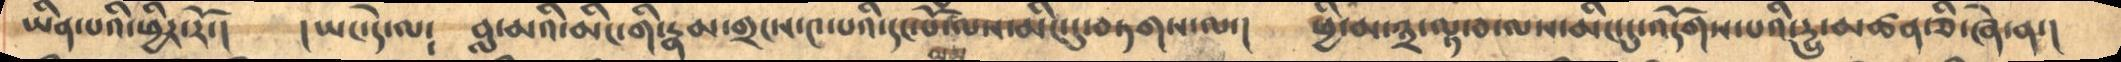ཡིན་པའི་ཕྱིར་རོ་།    །ཡང་དེ་ལ།  བླ་མའི་མིང་གི་རྣམ་གྲངས་༤་པའི་དང་པོ་ལས་མིང་དུ་བཏགས་ལ་།  ཕྱི་མ་༣་ལྟ་བ་ལས་མིང་དུ་འདོགད་པའི་དྱུ་མཚན་ཅི་ཞེ་ན་།
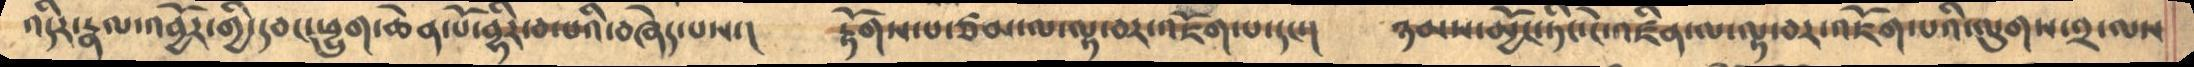འདིར་རྣལ་འབྱོར་གྱི་དབང་ཕྱུག་ཆེན་པོ་བྷིར་བ་པའི་བཞེད་པས་།   རྟོགས་པ་ཙམ་ལ་ལྟ་བར་འཇོག་པ་དང་།    ཉམས་མྱོང་ཏིང་ངེ་འཛིན་ལ་ལྟ་བར་འཇོག་པའི་ལུགས་༢་ལས
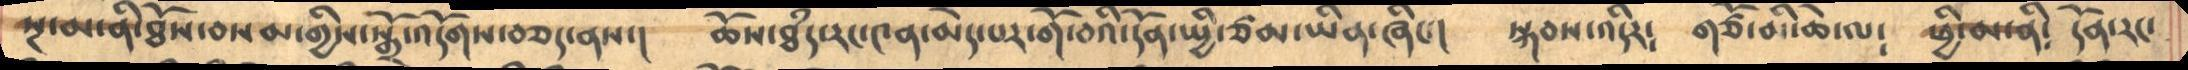སྔ་མ་ནི་ཐོས་བསམ་གྱིས་སྒྲོ་འདོགས་བཅད་ནས་།     ཆོས་ཐཾད་རང་༤ན་མེད་པར་གོ་བའི་དོན་སྤྱི་ཙམ་ཡིན་ཞིང་།    སྐབས་འདིར༴    གཙོ་མི་ཆེ་ལ༴   ཕྱི་མ་ནི༴   དོན་རང་
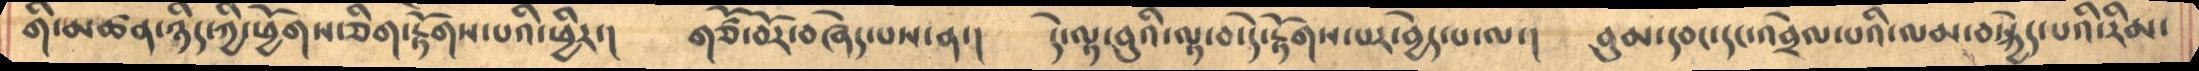གི་མཚན་ཉིད་ཀྱི་ཕྱོགས་ཅིག་རྟོགས་པའི་ཕྱིར་།     གཙོ་བོར་བཞེད་པས་ན་།    དེ་ལྟ་བུའི་ལྟ་བ་དེ་རྟོགས་པར་བྱེད་པ་ལ་།   བུམ་དབང་དང་འབྲེལ་པའི་ལམ་བསྐྱེད་པའི་རིམ་
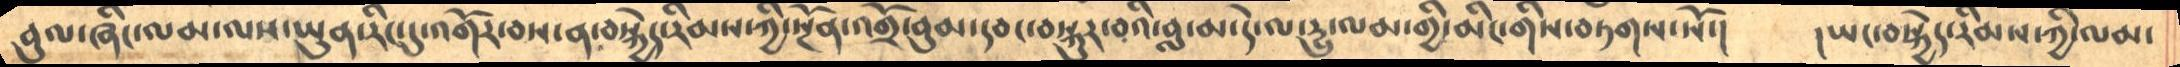བུལ་ཞིང་ལམ་ལས་ཡུན་རིང་དུ་འགོར་བས་ན་བསྐྱེད་རིམས་ཀྱི་སྔོན་འགྲོ་བུམ་དབང་བསྐུར་བའི་བླ་མ་དེ་ལ་དྱུ་ལམ་གྱི་མིང་གིས་བཏགས་སོ་།   །ཡང་བསྐྱེད་རིམས་ཀྱི་ལམ་
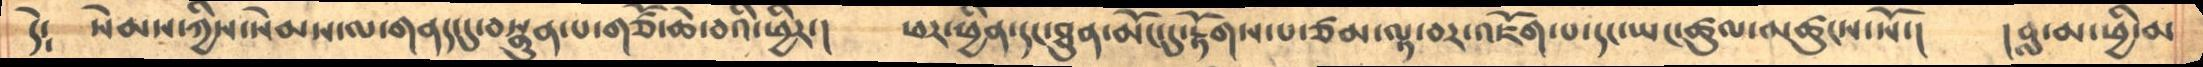དེ༴     སེམས་ཀྱིས་སེམས་ལ་གནད་དུ་བསྣུན་པ་གཙོ་ཆེ་བའི་ཕྱིར་།     ཕར་ཕྱིན་དང་ཐུན་མོང་དུ་རྟོགས་པ་ཙམ་ལྟ་བར་འཇོག་པ་དང་ཡང་ཚུལ་མཚུངས་སོ་།    །བླ་་མ་ཕྱི་མ
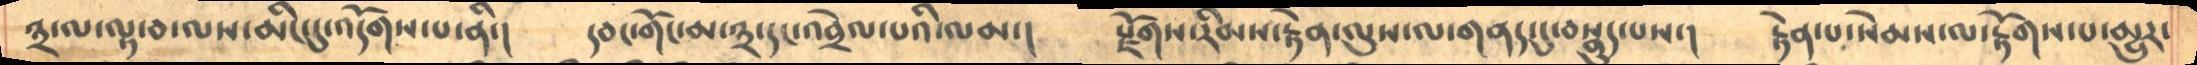༣་ལ་ལྟ་བ་ལས་མིང་དུ་འདོགས་པ་ནི་།     དབང་གོང་མ་༣་དང་འབྲེལ་པའི་ལམ་།     རྫོགས་རིམས་རྟེན་ལུས་ལ་གནད་དུ་བསྣུད་པས་།   རྟེན་པ་སེམས་ལ་རྟོགས་པ་མྱུར་
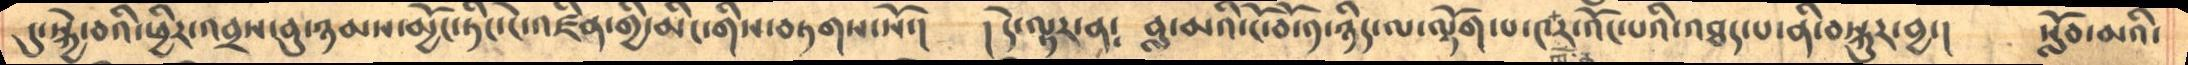དུ་སྐྱེ་བའི་ཕྱིར་འབྲས་བུ་ཉམས་མྱོང་ཏིང་ངེ་འཛིན་གྱི་མིང་གིས་བཏགས་སོ་།   ། དེ་ལྟར་ན༴   བླ་མའི་ངོ་བོ་༡་ཉིད་ལ་ལྡོག་པ་༤ར་འོང་པའི་འཐད་པ་ནི་བསྐུར་བྱ་།  སློབ་མའི་
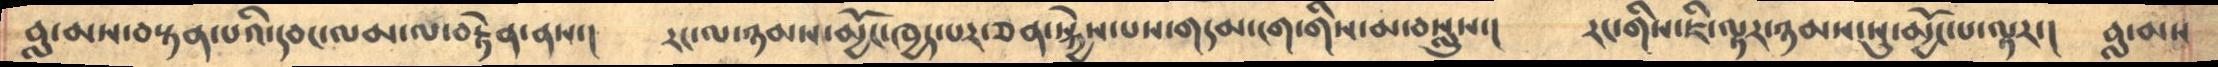བླ་མས་བསྟན་པའི་དབང་ལམ་ལ་བརྟེན་ནས་།    རང་ལ་ཉམས་མྱོང་ཁྱད་པར་ཅན་སྐྱེས་པས་གདམ་ངག་གིས་མ་བསླུས་།   རང་གིས་ཇི་ལྟར་ཉམས་སུ་མྱོང་པ་ལྟར་།    བླ་མས
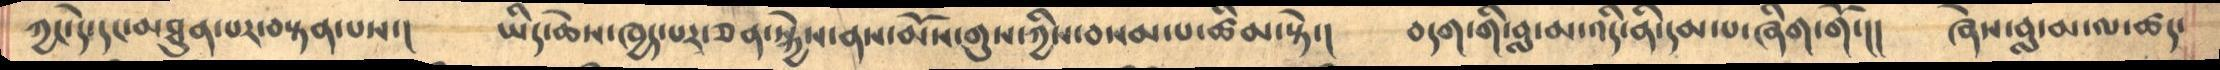ཀྱང་དེ་དང་མཐུན་པར་བསྟན་པས་།     ཡིད་ཆེས་ཁྱད་པར་ཅན་སྐྱེས་ནས་མོས་གུས་ཀྱིས་བསམ་པ་ཚིམ་སྟེ་།    བདག་གི་བླ་མ་འདི་ནི་དམ་པ་ཞིག་གོ་།།    ཞེས་བླ་མ་ལ་ཚད་
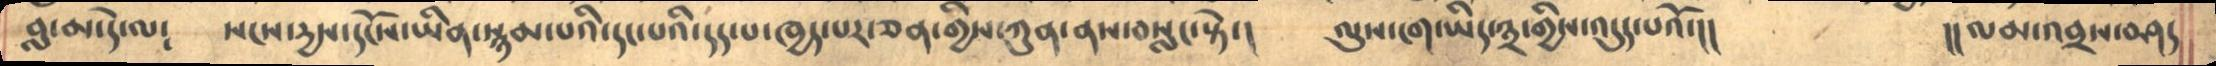བླ་མ་དེ་ལ༴    སངས་དྱས་དངོས་ཡིན་སྙམ་པའི་དང་པའི་དད་པ་ཁྱད་པར་ཅན་གྱིས་ཀུན་ནས་བསླང་སྟེ་།    ལུས་ངག་ཡིད་༣་གྱིས་འདུད་པའོ་།།      །། ལམ་འབྲས་བཤད
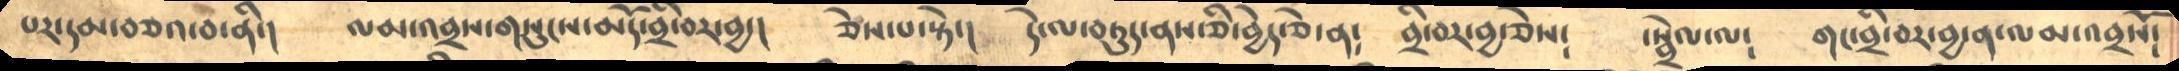པར་དམ་བཅའ་བ་ནི་།     ལམ་འབྲས་གསུངས་མདོ་བྲི་བར་བྱ་།    ཅེས་པ་སྟེ་།   དེ་ལ་བཏུད་ནས་ཅི་བྱེད་ཅེ་ན༴    བྲི་བར་བྱ་ཅེས༴    ་སྦྲེལ་ལ༴    གང་བྲི་བར་བྱ་ན་ལམ་འབྲསོ༴
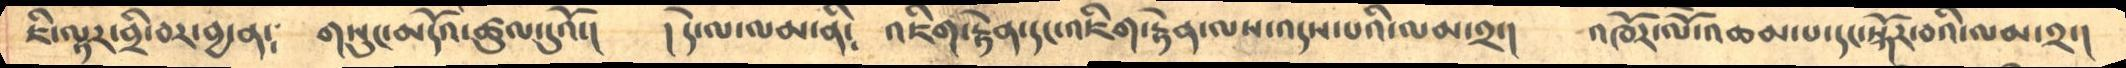ཇི་ལྟར་བྲི་བར་བྱ་ན༴    གསུང་མདོའ་ཚུལ་དུའོ་།    ། དེ་ལ་ལམ་ནི༴     འཇིག་རྟེན་དང་འཇིག་རྟེན་ལས་འདས་པའི་ལམ་༢་།    འཁོར་ལོ་འཆམ་པ་དང་སྐོར་བའི་ལམ་༢་།
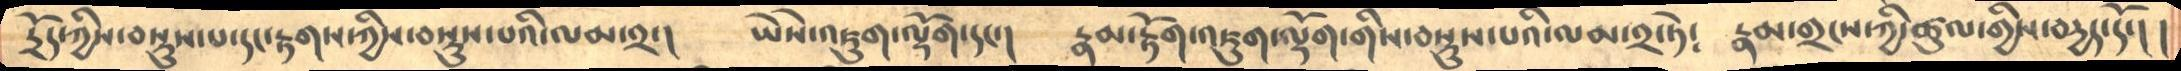དྲོད་ཀྱིས་བསྡུས་པ་དང་རྟགས་ཀྱིས་བསྡུས་པའི་ལམ་༢་།   ཡཻས་འཇུག་ལྡོག་དང་།    རྣམ་རྟོག་འཇུག་ལྡོག་གིས་བསྡུས་པའི་ལམ་༢་ཏེ༴    རྣམ་གྲངས་ཀྱི་ཚུལ་གྱིས་བདྱད་དོ་།  །
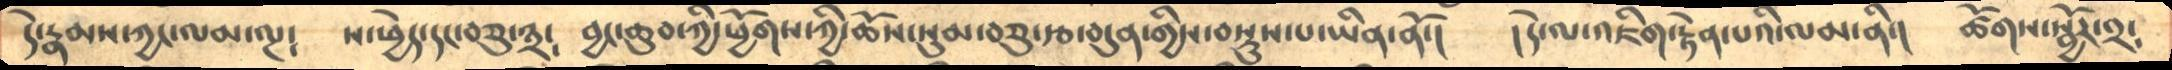དེ་རྣམས་ཀྱང་ལམ་ལྔ༴    ས་ཕྱེད་དང་བཅུ་༣༴    བྱང་ཆུབ་ཀྱི་ཕྱོགས་ཀྱི་ཆོས་སུམ་བཅུ་རྩ་བདུན་གྱིས་བསྡུས་པ་ཡིན་ནོ་།    ། དེ་ལ་འཇིག་རྟེན་པའི་ལམ་ནི་།   ཚོགས་སྦྱོར་༢༴
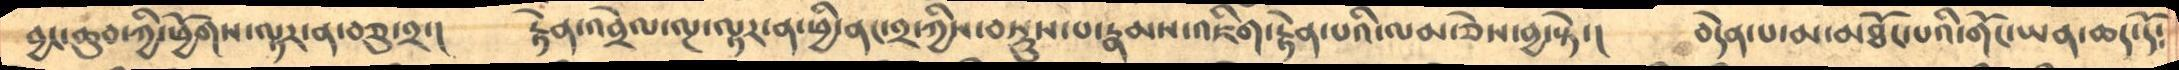བྱང་ཆུབ་ཀྱི་ཕྱོགས་ལྟར་ན་བཅུ་༢་།       རྟེན་འབྲེལ་ལྔ་ལྟར་ན་ཕྱི་ནང་༢་ཀྱིས་བསྡུས་པ་རྣམས་འཇིག་རྟེན་པའི་ལམ་ཅེས་བྱ་སྟེ་།     བདེན་པ་མ་མཐོང་པའི་གོང་ཡན་ཆད་དོ༴
